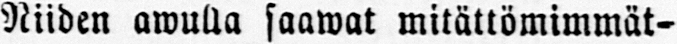Niiden awulla saawat mitättömimmät-
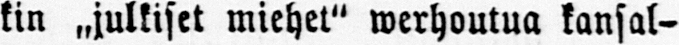kin ˶julkiset miehet" werhoutua kansal-
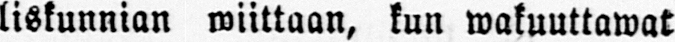liskunnian wiittaan, kun wakuuttawat
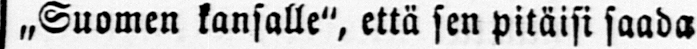˶Suomen kansalle", että sen pitäisi saada
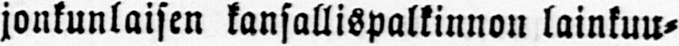jonkunlaisen kansallispalkinnon lainkuu-
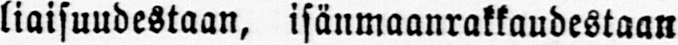liaisuudestaan, isänmaanrakkaudestaan
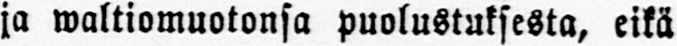ja waltiomuotonsa puolustuksesta, eikä
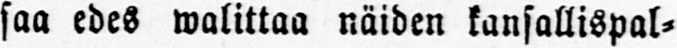saa edes walittaa näiden kansallispal-
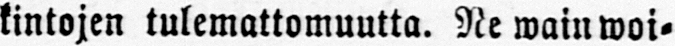kintojen tulemattomuutta. Ne wain woi-
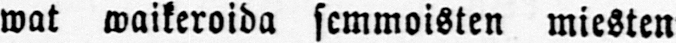wat waikeroida semmoisten miesten
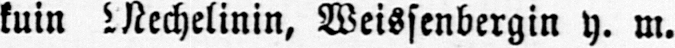kuin Mechelinin, Weissenbergin y. m.
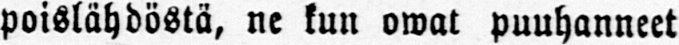poislähdöstä, ne kun owat puuhanneet
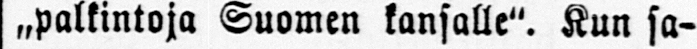˶palkintoja Suomen kansalle". Kun sa-
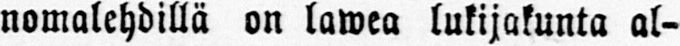nomalehdillä on lawea lukijakunta al-
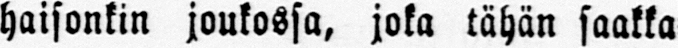haisonkin joukossa, joka tähän saakka
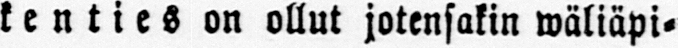kenties on ollut jotensakin wäliäpi-
